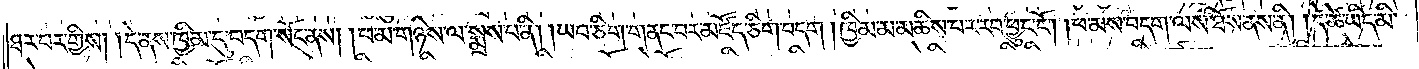ཐར་བར་གྱིས། །དེ་ནས་ཁྱིམ་དུ་བདག་སོང་ནས། །ཕ་མ་གཉིས་ལ་སྨྲས་པ་ནི། །ཡབ་ཅིག་གནང་བར་མཛོད་ཅིག་བདག །ཁྱིམ་མ་མཆིས་པར་རབ་ཕྱུང་ངོ༌། །ཕ་མས་བདག་ལས་ཐོས་ནས་ནི། །དེ་ཚེ་ཡིད་མི་
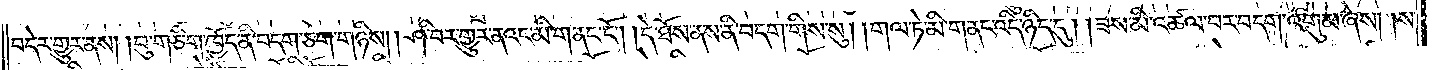བདེར་གྱུར་ནས། །བུ་གཅིག་ཁྱོད་ནི་བདག་ཅག་གཉིས། །ཤི་བར་གྱུར་ནའང་མི་གནང་ངོ༌། །དེ་ཐོས་ནས་ནི་བདག་གིས་སུ། །གལ་ཏེ་མི་གནང་འདི་ཉིད་དུ། །ཟས་མི་འཚལ་བར་བདག་འགུམ་ཞེས། །ས་
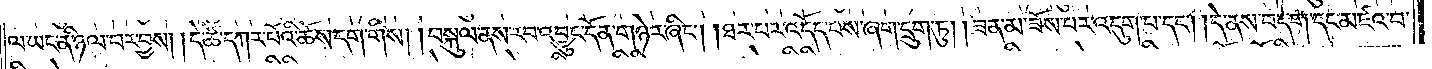ལ་ཡང་ནི་ཉལ་བར་བྱས། །དེ་ཚེ་དཀར་པོའི་ཆོས་དག་གིས། །བསྐུལ་ནས་རབ་འབྱུང་དོན་གཉེར་ཞིང༌། །ཐར་པར་འདོད་པས་ཞག་དྲུག་ཏུ། །ཟན་མ་ཟོས་པར་འདུག་པ་དང༌། །དེ་ནས་བདག་དང་མཛའ་བ་
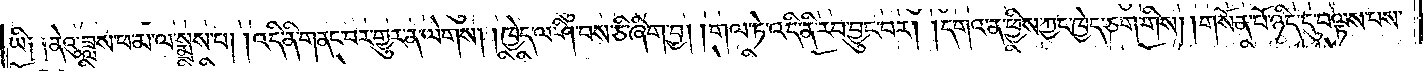ཡི༑ ༑ནེའུ་ཟླས་ཕ་མ་ལ་སྨྲས་པ། །འདི་ནི་གནང་བར་གྱུར་ན་ལེགས། །ཁྱེད་ལ་ཤི་བས་ཅི་ཞིག་བྱ། །གལ་ཏེ་འདི་ནི་རབ་བྱུང་བར། །དགའ་ན་ཕྱིས་ཀྱང་ཁྱེད་ཅག་གིས། །གསོན་པོ་ཉིད་དུ་བལྟས་པས་
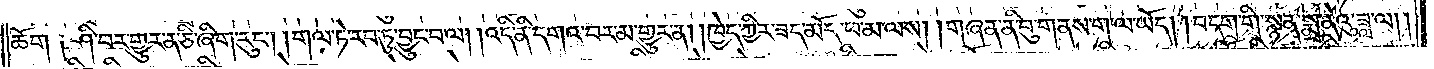ཆོག  ༑ཤི་བར་གྱུར་ན་ཅི་ཞིག་རུང༌། །གལ་ཏེ་རབ་ཏུ་བྱུང་བ་ལ། །འདི་ནི་དགའ་བར་མ་གྱུར་ན། །ཁྱེད་ཀྱིར་ཟད་མོད་ཕ་མ་ལས། །གཞན་ནི་བུ་གནས་ག་ལ་ཡོད། །བདག་གི་སྙན་སྨྲ་ནེའུ་ཟླ་ལ། །
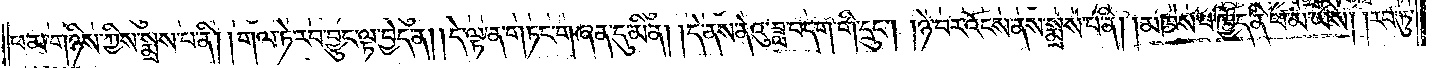ཕ་མ་གཉིས་ཀྱིས་སྨྲས་པ་ནི། །གལ་ཏེ་རབ་བྱུང་ལྟ་བྱེད་ན། །དེ་ལྟ་ན་གཏང་གཞན་དུ་མིན། །དེ་ནས་ནེའུ་ཟླ་བདག་གི་དྲུང༌། །ཉེ་བར་འོངས་ནས་སྨྲས་པ་ནི། །མཁས་པ་ཁྱོད་ནི་ཕ་མ་ཡིས། །རབ་ཏུ་
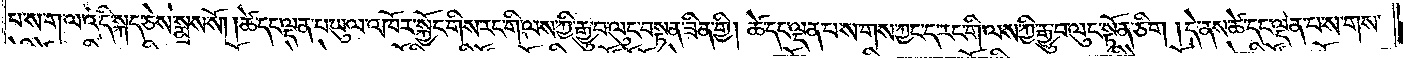པ་ས་ག་ལ་འདི་སྐད་ཅེས་སྨྲས་སོ། །ཚེ་དང་ལྡན་པ་ཡུལ་འཁོར་སྐྱོང་གིས་རང་གི་ལས་ཀྱི་རྒྱུ་བ་ལུང་བསྟན་ཟིན་གྱི། ཚེ་དང་ལྡན་པས་གས་ཀྱང་ད་རང་གི་ལས་ཀྱི་རྒྱུ་བ་ལུང་སྟོན་ཅིག །དེ་ནས་ཚེ་དང་ལྡན་པས་གས་
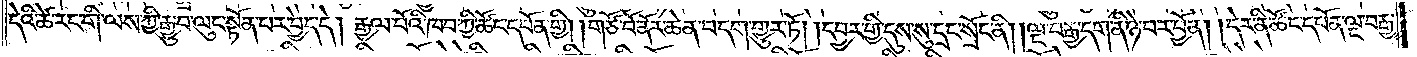དེའི་ཚེ་རང་གི་ལས་ཀྱི་རྒྱུ་བ་ལུང་སྟོན་པར་བྱེད་དེ། རྒྱལ་པོའི་ཁབ་ཀྱི་ཚོང་དཔོན་གྱི། །གཙོ་བོ་ནོར་ཆེན་བདག་གྱུར་ཏོ། །དབྱར་གྱི་དུས་སུ་དྲང་སྲོང་ནི། །ལྔ་བརྒྱ་དག་ནི་ཉེ་བར་བྱོན། །དེར་ནི་ཚོང་དཔོན་ལྔ་བརྒྱ་
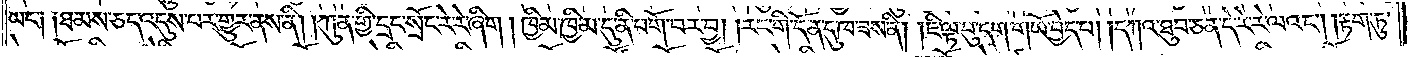ཡང་༑ ༑ཐམས་ཅད་འདུས་པར་གྱུར་ནས་ནི། །ཀུན་གྱི་དྲང་སྲོང་རེ་རེ་ཞིག །ཁྱིམ་ཁྱིམ་དུ་ནི་བགོ་བར་བྱ། །རང་གི་དོན་དུ་ཁ་ཟས་ནི། །ཇི་ལྟ་བུ་དག་གཡོ་བྱེད་པ། །དཀའ་ཐུབ་ཅན་དེ་རེ་རེ་ལའང༌། །རྟག་ཏུ་
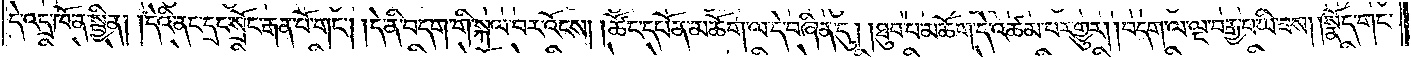དེ་འདྲ་ཁོ་ན་སྦྱིན། །དེའི་ནང་དྲང་སྲོང་རྒན་པོ་གང༌། །དེ་ནི་བདག་གི་སྐལ་བར་འོངས། །ཚོང་དཔོན་མཆོག་ལ་དེ་བཞིན་དུ། །ཐུབ་པ་མཆོག་དེ་འཚམ་པར་གྱུར། །བདག་ལ་ལྔ་བརྒྱ་བ་ཡི་ཟས། །སྣོད་གང་
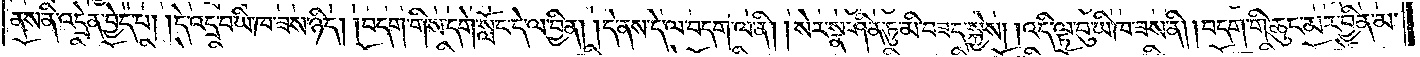ནས་ནི་འདྲེན་བྱེད་པ། །དེ་འདྲ་བ་ཡི་ཁ་ཟས་ཉིད། །བདག་གིས་དགེ་སློང་དེ་ལ་བྱིན། །དེ་ནས་དེ་ལ་བདག་ལ་ནི། །སེར་སྣ་ཤིན་ཏུ་མི་བཟད་སྐྱེས། །འདི་ལྟ་བུ་ཡི་ཁ་ཟས་ནི། །བདག་གི་ཆུང་མར་བྱིན་མ་
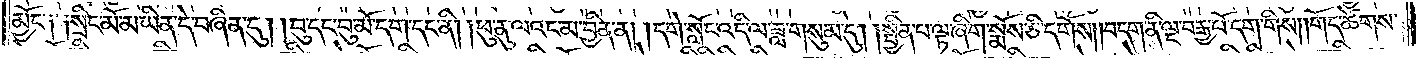མྱོང་༑ ༑སྲིང་མོ་མ་ཡིན་དེ་བཞིན་དུ། །བུ་དང་བུ་མོ་དག་དང་ནི། །ཕུ་ནུ་ལའང་མ་བྱིན་ན། །དགེ་སློང་འདི་ལ་ཟླ་གསུམ་དུ། །སྦྱིན་པ་ལྟ་ཞིག་སྨོས་ཅི་དགོས། །བདག་ནི་ལྔ་བརྒྱ་པོ་དག་གིས། །གོད་ཚེགས་
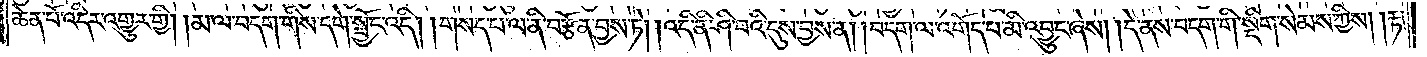ཆེན་པོ་འདིར་འགྱུར་གྱི། །མ་ལ་བདག་གིས་དགེ་སྦྱོང་འདི། །གསད་པ་ལ་ནི་བརྩོན་བྱས་ཏེ། །འདི་ནི་ཤི་བའི་དུས་བྱས་ན། །བདག་ལ་འགོད་པ་མི་འབྱུང་ཞེས། །དེ་ནས་བདག་གི་སྡིག་སེམས་ཀྱིས། །རྟ་
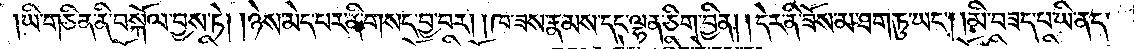ཡི་གཅིན་ནི་བསྐོལ་བྱས་ཏེ། །ཉེས་མེད་པར་ནི་གསད་བྱ་བར། །ཁ་ཟས་རྣམས་དང་ལྷན་ཅིག་བྱིན། །དེར་ནི་ཟོས་མ་ཐག་ཏུ་ཡང༌། །མི་བཟད་པ་ཡི་ནད་
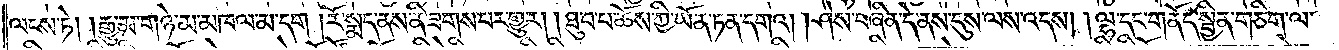ལངས་ཏེ། །རྒྱུ་མ་གཉེ་མ་མཁལ་མ་དག། །རོ་སྨད་ནས་ནི་ཟགས་པར་གྱུར། །ཐུབ་པ་ཆོས་ཀྱི་ཡོན་ཏན་དགའ། །ཤེས་བཞིན་དེ་ནས་དུས་ལས་འདས། །ལྷ་དང་གནོད་སྦྱིན་གཅིག་ལ་
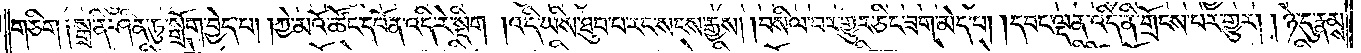གཅིག ༑སྒྲ་ནི་ཤིན་ཏུ་སྒྲོག་བྱེད་པ། །ཀྱེ་མའོ་ཚོང་དཔོན་འདི་རེ་སྡིག །འདི་ཡིས་ཐུབ་པ་རང་སངས་རྒྱས། །བསིལ་བར་གྱུར་ཅིང་ཟག་མེད་པ། །དབང་ལྡན་འདི་ནི་གྲོངས་པར་གྱུར། །ཉེ་དུ་རྣམས་
